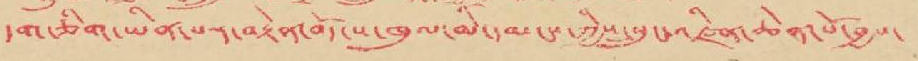དག་ཅིག་ཡིན་པར་བརྟེན་བོད་ས་ཁུལ་མི་དམངས་ཀྱིས་དཔུང་འཛིན་ཆེན་པོ་བྱས་
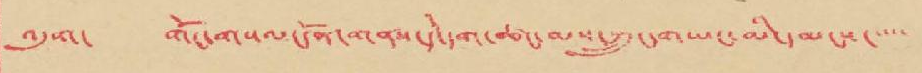འདུག་ གོང་གསལ་དོན་གནས་དེ་དག་ཚང་མས་ཀྲུང་གཡང་མི་དམངས་་་་་
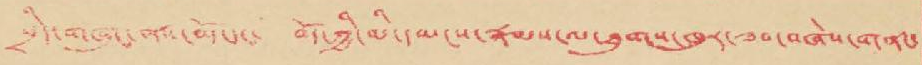སྲིད་གཞུང་ནས་བོད་དང་ བོད་ཀྱི་མི་དམངས་རྣམས་ལ་ཐུགས་ཁུར་ཟབ་བཞེས་གནང་
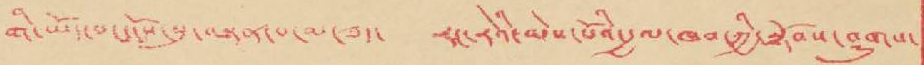གི་ཡོད་པ་དངོས་སུ་བསྟན་པ་མ་ཟད་ རང་རེའི་མེས་པོའི་རྒྱལ་ཁབ་ཀྱི་སྟོབས་ཤུགས་
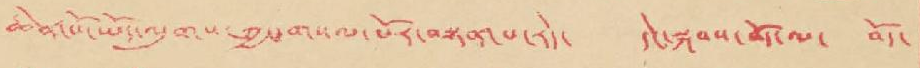ཆེན་པོ་ཡོད་ལུགས་ཀྱང་གསལ་པོར་བསྟན་པ་རེད་ དེང་སྐབས་བོད་ལ་ བོད་
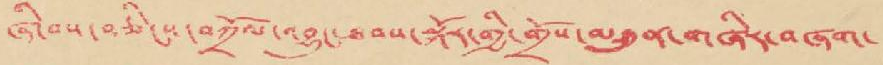ཞི་བས་བཅིངས་བཀྲོལ་འབྱུང་ཐབས་སྐོར་གྱི་གྲོས་མཐུན་གཞིར་བཞག་
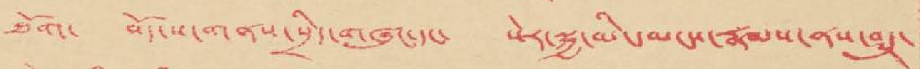ཐོག་ བོད་ས་གནས་སྲིད་གཞུང་དང་ སེར་སྐྱ་མི་དམངས་རྣམས་ནས་ཤུཊ་
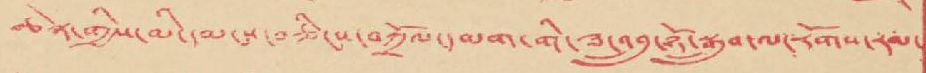ཆེན་གྱིས་མི་དམངས་བཅིངས་བཀྲོལ་དམག་གི་ཟ་འབྲུ་ཉོ་སྒྲུབ་ལ་རོགས་རམ་
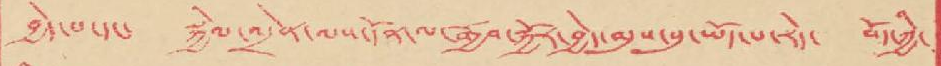བྱེད་པ་དང་ སྐྱེལ་འདྲེན་ལས་དོན་ལ་རྒྱབ་སྐྱོར་བྱེད་མུས་སུ་ཡོད་པ་རེད་ བོད་ཀྱི་
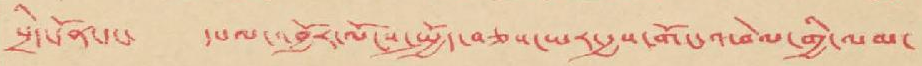སྲིད་དོན་དང་ དཔལ་འབྱོར་ལོངས་སྤྱོད་བཅས་ཡར་རྒྱས་གོང་འཕེལ་གྱི་ལམ་
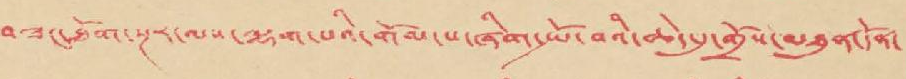བཟང་ཐོག་སྔར་ལས་ལྷག་པའི་གོམ་པ་ཞིག་སྤོ་བའི་ཆེད་དུ་གྲོས་མཐུན་དོན་
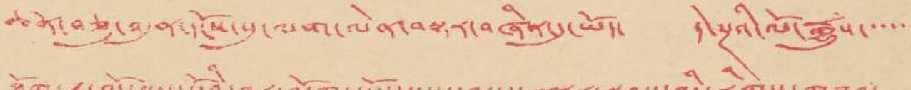ཚན་བཅུ་བདུན་དངོས་སུ་ལག་ལེན་བསྟར་བཞིན་དུ་ཡོད་ དེ་སྔའི་ལོ་རྒྱུས་་་་་
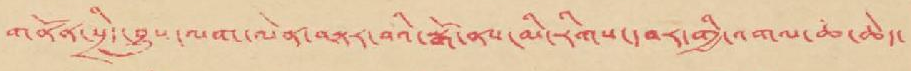གནོན་སྲིད་བྱུས་ལག་ལེན་བསྟར་བའི་སྒོ་ནས་མི་རིགས་དབར་གྱི་འགལ་ཆ་ཆེད་
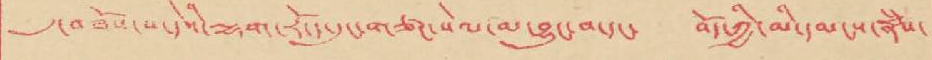དུ་བཟོས་པ་དེའི་ལྷག་རོ་ད་དུང་གཙང་སེལ་མ་བྱུང་བ་དང་ བོད་ཀྱི་མི་དམངས་རྣཾས་
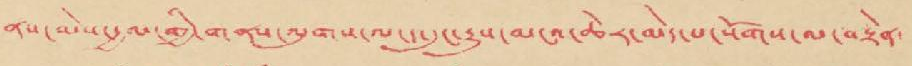ནས་མེས་རྒྱལ་གྱི་གནས་ལུགས་ལ་ད་དུང་རྒྱུས་མངའ་ཆེར་མེད་པ་སོགས་ལ་བརྟེན་
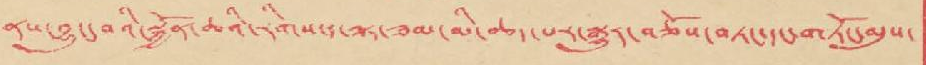ནས་བྱུང་བའི་སྐྱོན་ཆའི་རིགས་ད་ལྟ་ཟམ་མི་ཆད་པར་སྒྱུར་བཅོས་བཏང་དང་གཏོང་མུས་
